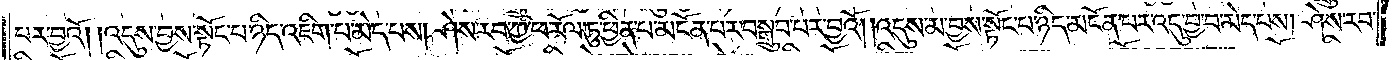པར་བྱའོ། །འདུས་བྱས་སྟོང་པ་ཉིད་འཇིག་པ་མེད་པས། ཤེས་རབ་ཀྱི་ཕ་རོལ་ཏུ་ཕྱིན་པ་མངོན་པར་བསྒྲུབ་པར་བྱའོ། །འདུས་མ་བྱས་སྟོང་པ་ཉིད་མངོན་པར་འདུ་བྱ་བ་མེད་པས། ཤེས་རབ་
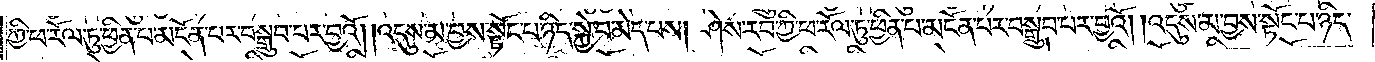ཀྱི་ཕ་རོལ་ཏུ་ཕྱིན་པ་མངོན་པར་བསྒྲུབ་པར་བྱའོ། །འདུས་མ་བྱས་སྟོང་པ་ཉིད་སྐྱེ་བ་མེད་པས། ཤེས་རབ་ཀྱི་ཕ་རོལ་ཏུ་ཕྱིན་པ་མངོན་པར་བསྒྲུབ་པར་བྱའོ། །འདུས་མ་བྱས་སྟོང་པ་ཉིད་
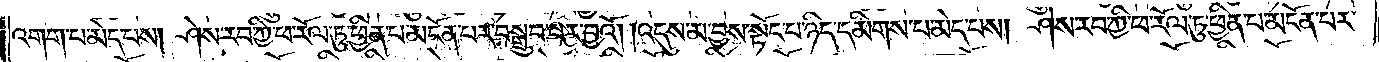འགག་པ་མེད་པས། ཤེས་རབ་ཀྱི་ཕ་རོལ་ཏུ་ཕྱིན་པ་མངོན་པར་བསྒྲུབ་པར་བྱའོ། །འདུས་མ་བྱས་སྟོང་པ་ཉིད་དམིགས་པ་མེད་པས། ཤེས་རབ་ཀྱི་ཕ་རོལ་ཏུ་ཕྱིན་པ་མངོན་པར་
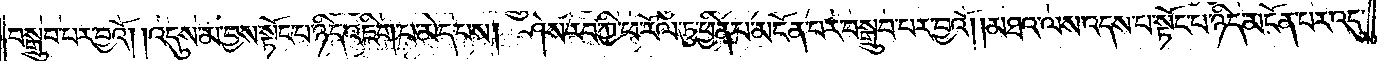བསྒྲུབ་པར་བྱའོ། །འདུས་མ་བྱས་སྟོང་པ་ཉིད་འཇིག་པ་མེད་པས། ཤེས་རབ་ཀྱི་ཕ་རོལ་ཏུ་ཕྱིན་པ་མངོན་པར་བསྒྲུབ་པར་བྱའོ། །མཐའ་ལས་འདས་པ་སྟོང་པ་ཉིད་མངོན་པར་འདུ་
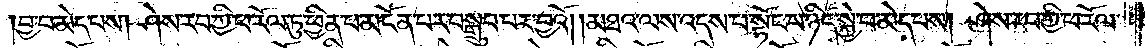བྱ་བ་མེད་པས། ཤེས་རབ་ཀྱི་ཕ་རོལ་ཏུ་ཕྱིན་པ་མངོན་པར་བསྒྲུབ་པར་བྱའོ། །མཐའ་ལས་འདས་པ་སྟོང་པ་ཉིད་སྐྱེ་བ་མེད་པས། ཤེས་རབ་ཀྱི་ཕ་རོལ་
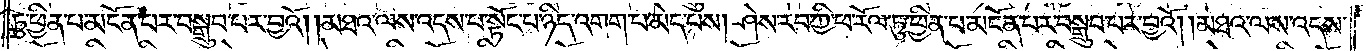ཏུ་ཕྱིན་པ་མངོན་པར་བསྒྲུབ་པར་བྱའོ། །མཐའ་ལས་འདས་པ་སྟོང་པ་ཉིད་འགག་པ་མེད་པས། ཤེས་རབ་ཀྱི་ཕ་རོལ་ཏུ་ཕྱིན་པ་མངོན་པར་བསྒྲུབ་པར་བྱའོ། །མཐའ་ལས་འདས་
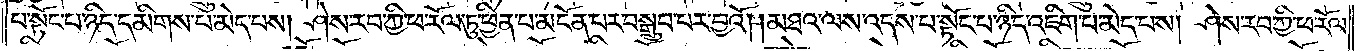པ་སྟོང་པ་ཉིད་དམིགས་པ་མེད་པས། ཤེས་རབ་ཀྱི་ཕ་རོལ་ཏུ་ཕྱིན་པ་མངོན་པར་བསྒྲུབ་པར་བྱའོ། །མཐའ་ལས་འདས་པ་སྟོང་པ་ཉིད་འཇིག་པ་མེད་པས། ཤེས་རབ་ཀྱི་ཕ་རོལ་
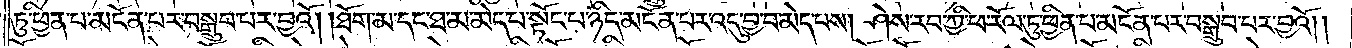ཏུ་ཕྱིན་པ་མངོན་པར་བསྒྲུབ་པར་བྱའོ། །ཐོག་མ་དང་ཐ་མ་མེད་པ་སྟོང་པ་ཉིད་མངོན་པར་འདུ་བྱ་བ་མེད་པས། ཤེས་རབ་ཀྱི་ཕ་རོལ་ཏུ་ཕྱིན་པ་མངོན་པར་བསྒྲུབ་པར་བྱའོ། །
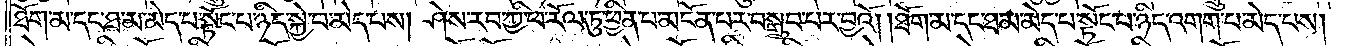ཐོག་མ་དང་ཐ་མ་མེད་པ་སྟོང་པ་ཉིད་སྐྱེ་བ་མེད་པས། ཤེས་རབ་ཀྱི་ཕ་རོལ་ཏུ་ཕྱིན་པ་མངོན་པར་བསྒྲུབ་པར་བྱའོ། །ཐོག་མ་དང་ཐ་མ་མེད་པ་སྟོང་པ་ཉིད་འགག་པ་མེད་པས།
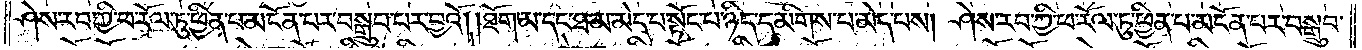ཤེས་རབ་ཀྱི་ཕ་རོལ་ཏུ་ཕྱིན་པ་མངོན་པར་བསྒྲུབ་པར་བྱའོ། །ཐོག་མ་དང་ཐ་མ་མེད་པ་སྟོང་པ་ཉིད་དམིགས་པ་མེད་པས། ཤེས་རབ་ཀྱི་ཕ་རོལ་ཏུ་ཕྱིན་པ་མངོན་པར་བསྒྲུབ་
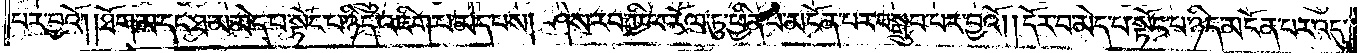པར་བྱའོ། །ཐོག་མ་དང་ཐ་མ་མེད་པ་སྟོང་པ་ཉིད་འཇིག་པ་མེད་པས། ཤེས་རབ་ཀྱི་ཕ་རོལ་ཏུ་ཕྱིན་པ་མངོན་པར་བསྒྲུབ་པར་བྱའོ། །དོར་བ་མེད་པ་སྟོང་པ་ཉིད་མངོན་པར་འདུ་
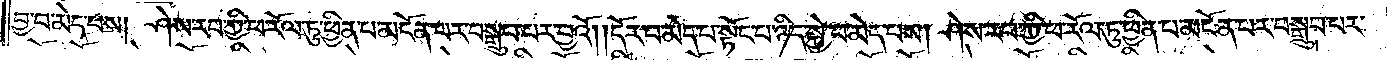བྱ་བ་མེད་པས། ཤེས་རབ་ཀྱི་ཕ་རོལ་ཏུ་ཕྱིན་པ་མངོན་པར་བསྒྲུབ་པར་བྱའོ། །དོར་བ་མེད་པ་སྟོང་པ་ཉིད་སྐྱེ་བ་མེད་པས། ཤེས་རབ་ཀྱི་ཕ་རོལ་ཏུ་ཕྱིན་པ་མངོན་པར་བསྒྲུབ་པར་
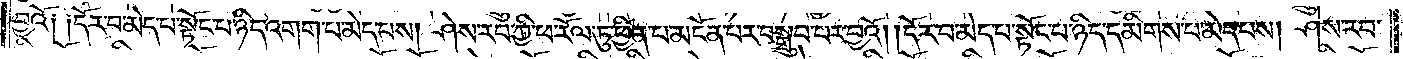བྱའོ༑ ༑དོར་བ་མེད་པ་སྟོང་པ་ཉིད་འགག་པ་མེད་པས། ཤེས་རབ་ཀྱི་ཕ་རོལ་ཏུ་ཕྱིན་པ་མངོན་པར་བསྒྲུབ་པར་བྱའོ། །དོར་བ་མེད་པ་སྟོང་པ་ཉིད་དམིགས་པ་མེད་པས། ཤེས་རབ་
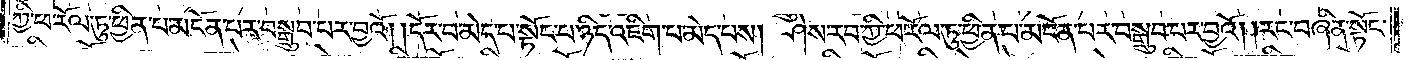ཀྱི་ཕ་རོལ་ཏུ་ཕྱིན་པ་མངོན་པར་བསྒྲུབ་པར་བྱའོ། །དོར་བ་མེད་པ་སྟོང་པ་ཉིད་འཇིག་པ་མེད་པས། ཤེས་རབ་ཀྱི་ཕ་རོལ་ཏུ་ཕྱིན་པ་མངོན་པར་བསྒྲུབ་པར་བྱའོ། །རང་བཞིན་སྟོང་
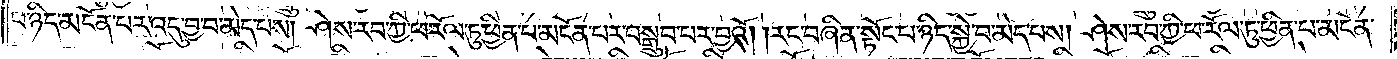པ་ཉིད་མངོན་པར་འདུ་བྱ་བ་མེད་པས། ཤེས་རབ་ཀྱི་ཕ་རོལ་ཏུ་ཕྱིན་པ་མངོན་པར་བསྒྲུབ་པར་བྱའོ། །རང་བཞིན་སྟོང་པ་ཉིད་སྐྱེ་བ་མེད་པས། ཤེས་རབ་ཀྱི་ཕ་རོལ་ཏུ་ཕྱིན་པ་མངོན་
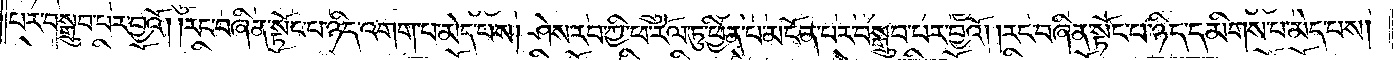པར་བསྒྲུབ་པར་བྱའོ། །རང་བཞིན་སྟོང་པ་ཉིད་འགག་པ་མེད་པས། ཤེས་རབ་ཀྱི་ཕ་རོལ་ཏུ་ཕྱིན་པ་མངོན་པར་བསྒྲུབ་པར་བྱའོ། །རང་བཞིན་སྟོང་པ་ཉིད་དམིགས་པ་མེད་པས།
